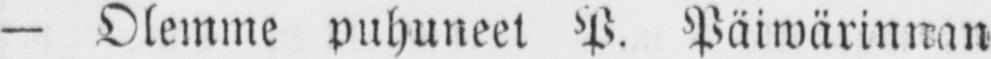— Olemme puhuneet P. Päiwärinnan
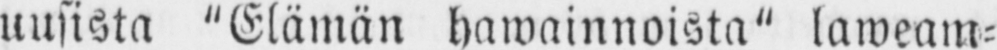uusista "Elämän hawainnoista" laweam-
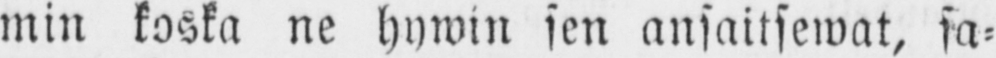min koska ne hywin sen ansaitsewat, sa-
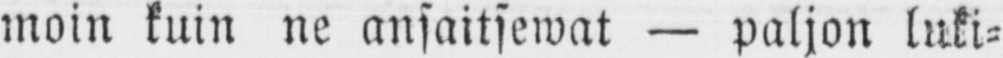moin kuin ne ansaitsewat — paljon luki-
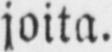joita.
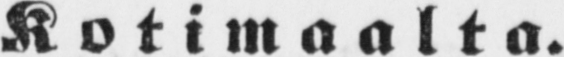Kotimaalta.
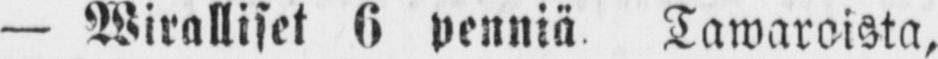— Wiralliset 6 penniä Tawaroista,
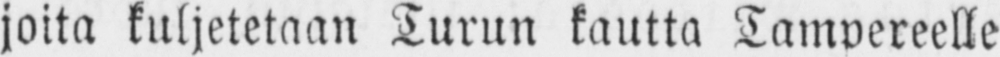joita kuljetetaan Turun kautta Tampereelle
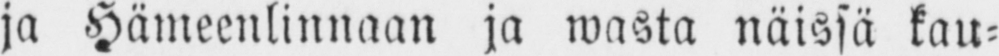ja Hämeenlinnaan ja wasta näissä kau-
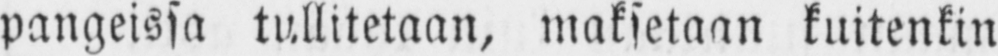pungeissa tullitetaan, maksetaan kuitenkin
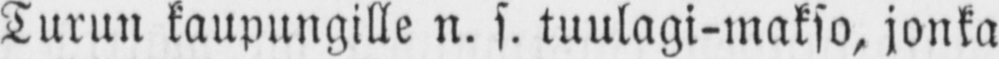Turun kaupungille n. s. tuulagi-makso, jonka
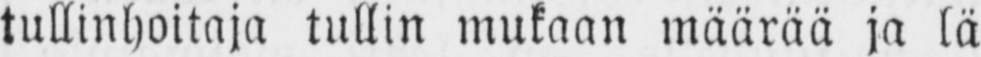tullinhoitaja tullin mukaan määrää ja lä-
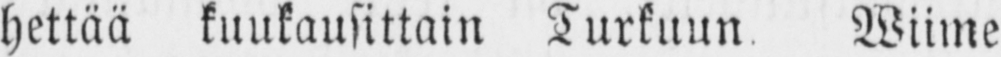hettää kuukausittain Turkuun Wiime
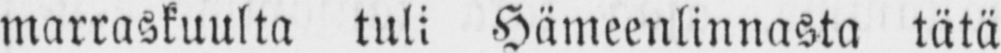marraskuulta tuli Hämeenlinnasta tätä
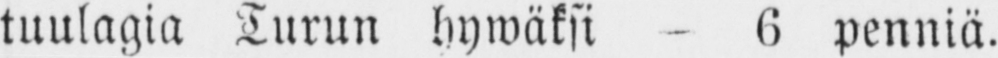tuulagia Turun hywäksi - 6 penniä.
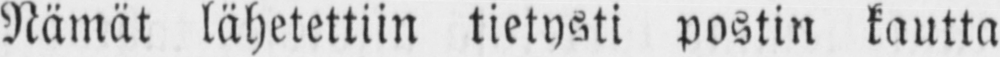Nämät lähetettiin tietysti postin kautta
